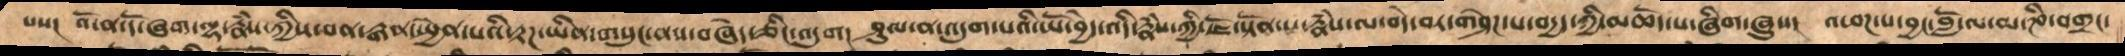པས།  འོ་ན་དོ་ཞག་ལྷ་རྣཾས་ཀྱིས་ཕན་རྒན་སྤྱེན་པའི་རྟཌ་ཡིན་གསུང་ནས་བཞེད་ཅིང་འདུག།  ཤུལ་ན་འདུག་པའི་ཡོ་བྱེད་འདི་རྣཾས་ཀྱི་ཇོ་སྟོན་པ་རྣཾས་ལ་བདེ་བར་གཤེཌ་པ་བདྱད་ཀྱི་མཆོད་པ་ཞིག་ཞུས།   འཕཌ་པ་བྱང་བློ་ལ་མ་ཎི་བགྲང་
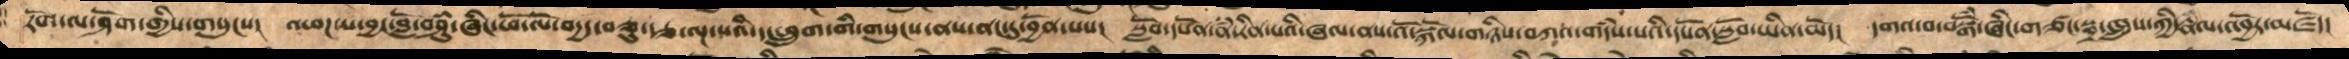རོག་ལ་ཤོག་གྱིས་གསུངས།  འཕཌ་པ་བྱང་བློ་བཤུཾ་ཞིང་ཕོ་ལོ་བདྱད་བཅུ་རྩ་ལྔ་པའི་དང་ཕྲུག་གི་གསུངས་ནས་ནང་དུ་བྱོན་པས།  སློབ་དཔོན་རྣཾ་རིན་པའི་ཞལ་ནས་འོ་སྐོལ་གཉིས་བཀའ་གདཾས་པའི་དཔོན་སློབ་ཡིན་མོད།   དགའ་བ་བསྒོཾ་ཞིང་གཙང་སྦྲ་ཁྲུས་ཀྱི་རྣལ་འབྱོར་མཛདོ།
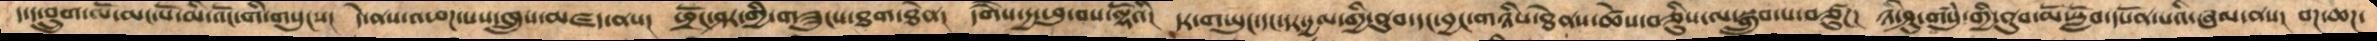ད་ད་བྲུག་ལོ་མང་པོ་མི་འོང་གི་གསུངས།  དེ་ནས་འཕཌ་པས་ཁྲུས་མཛད་ནས།  ཕྲོང་ཤར་གྱི་གཟུངས་ཐག་ཐེན།  དགཻས་དྱ་ཕུ་བས་ལྷོའི།  དར་གཡུང་དང་དར་དྱལ་གྱི་ནུབ་དང་བྱང་གཉིས་ཐེནས་ཚེས་བཅིུས་ལ་སྒྲུབ་པ་བཙུཌ།   ཉི་ཤུ་གསུཾ་གྱི་ནུབ་མོ་སློབ་དཔོན་པའི་ཞལ་ནས།  བཌ་ཆཌ་
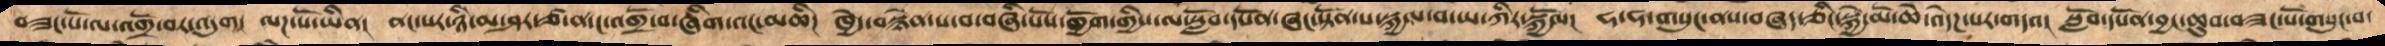བཟང་པོ་ལ་འགྲོ་བར་འདུག།  ལཌ་སོ་ཡིན།  ནང་པར་ཉི་མ་ཤར་ཙ་ན་ང་འགྲོ་བ་ཞིག་འང་མཆི།  ཁྱེད་བསྙེན་པ་བ་བཞི་པོས་གྱོག་གྱིས་ལ་སློབ་དཔོན་ཞང་སྟོན་པ་སྐྱལ་བ་ཡ་ཀིར་སྐྱོལ།  ཧ་ཧ་གསུང་ནས་བཞད་ཅིང་སྐྱེ་མོ་ཆེ་འདེཌ་པར་གདའ།  སློབ་དཔོན་བྱང་ཆུབ་བཟང་པོ་གསུང་བ་
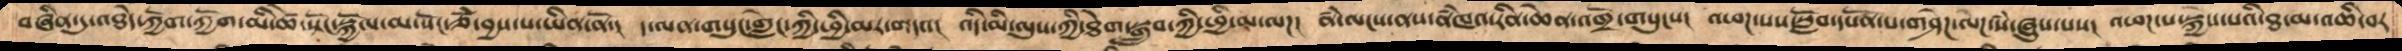བཞིན་དུ་འཐེད་ཀྱོག་ཀྱོག་མི་ཚེ་སྟོང་སྐྱོལ་མ་སོང་ཙཾ་བྱས་པ་ཡིན་ནོ་།  ད་ལན་གསུང་གླེང་ཀྱི་ཕྱི་མར་གདའ།  འདི་མི་ལུས་ཀྱི་ཐེག་སྒྲུབ་ཀྱི་ཕྱི་མ་ལཌ།  ནཾ་ལངས་ནས་ནཾཁའ་རིན་ཆེན་འགྲོ་གསུངས།  འཕཌ་པས་སློབ་དཔོན་པ་གཤེཌ་ལེཌ་སཾ་ཞུས་པས།  འཕཌ་པ་སྐྱེས་པའི་ཐ་མ་འཆི་བར
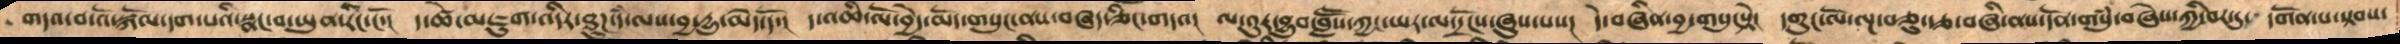གདའ་བ་འོ་སྐོལ་དག་པའི་སྣང་བ་ཡུན་རིང་ངོ་།  ད་ཚེ་འཇུག་འདིར་ཐུཌ་དཾ་ལས་བྱ་དྱུ་མེད་དོ་།  ད་འཆི་ལོ་བྱེད་མོད་གསུང་ནས་བཞད་ཅིང་གདའ།  ལ་འུར་བྱུཾབ་བླཽས་ཀྱང་ཡར་ལ་དྲོངས་ཞུས་པས།  དེ་བཞིན་བྱ་གསུངསྟེ།  དགུང་ལོ་ལྔ་བཅུ་རྩ་བཞི་ནས་དོན་གསུཾ་བཞེས་ཀྱི་བར་དུ་  དགོན་པ་སྟབས་
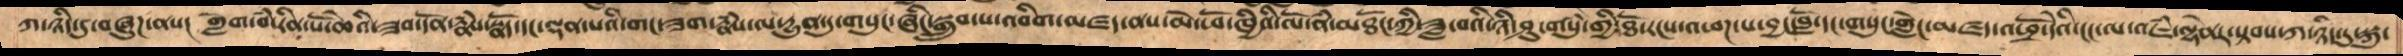ཀ་ཉིད་དུ་བཞུཌ་ནས།   གླེག་བཾ་རིན་པོ་ཆེའི་ཟབ་དོན་རྣཾས་སྣོད་དང་ལྡན་པའི་གང་ཟག་རྣཾས་ལ་དྱུན་དུ་གསུང་ཞིང་སྒྲུབ་པ་འབིག་མཛད་ནས་མེ་ཕོ་ཁྱིའི་ལོ་ནཾ་མཐོང་ཀྱི་ཟླ་བའི་ཉི་ཤུ་གསུཾ་གྱི་ཐོ་རངས་འཕཌ་པ་བྱང་བློ་དང་གསུང་གླེང་མཛད་འཕྲོ་དེའི་ངང་ལ་འཇཾ་ལྷེནར་སྟབས་ཀ་ཉིད་དུ་སྐུ་
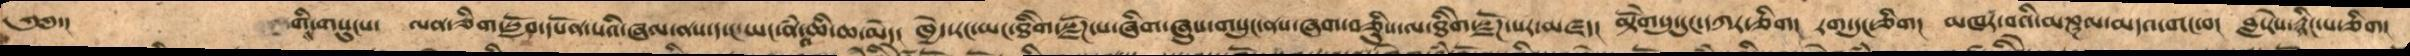༄༅་།      གིས་གསུངས། ལན་ཅིག་སློབ་དཔོན་པའི་ཞལ་ནས་ད་ང་ཡང་ནཾ་འཆི་ཆ་མེད། ཁྱེད་རང་ཡང་ཐིགེ་སྫོཌ་པ་ཞིག་ཞུས་གསུང་ནས་ཞག་བཅིུས་ལ་ཐིགེ་སྫོཌ་པར་མཛད། མྟེོགསུ་དུང་དཀར་ཅིག།  རག་དུང་ཅིག།  མཁར་བའི་མཎྜལ་མདའ་གང་བ། བླ་རེས་རྙིང་པ་ཅིག།
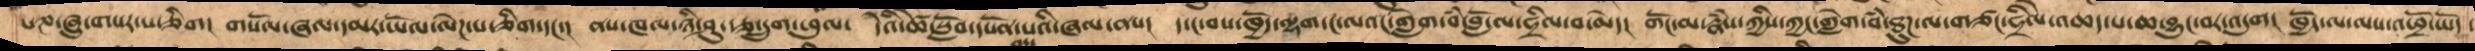པཎ་ཞུ་གསར་པ་ཅིག།  གསོལ་ཞལ་དམར་ཡོལ་ལེཌ་པ་ཅིག་དང་།  ནས་ཁལ་ཉི་ཤུ་རྩ་དྲུག་ཕུལ་  དེའི་ཚེ་སློབ་དཔོན་པའི་ཞལ་ནས་།  ད་ང་བས་ཁྱོད་ལྷག་ང་ལའང་གླེག་བཾ་བློ་ལ་ཧྲིལ་བ་མེད།  གོང་མ་རྣཾས་ཀྱིས་ཀྱང་གླེག་བཾ་ཐུཌ་ལ་གཙང་ཧྲིལ་འཆད་པ་ཆ་བྱུང་བར་འདུག།  ཁྱོད་ལ་ལས་འཕྲོ་ཡོད
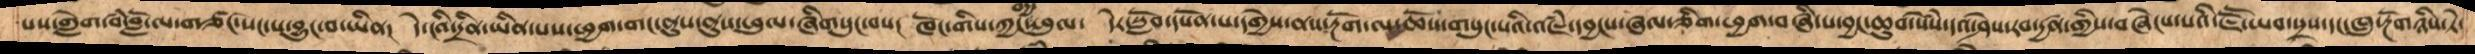པས་གླེག་བཾ་་བློ་ལ་གཙང་སེང་པ་བྱུང་བ་ཡིན། དེ་ངའི་དྲིན་ཡིན་པས་ཕྱག་གང་ནུས་ནུས་ཕུལ་ཞིགསུང་བས། ཁོང་གིས་ཀྱང་བདྱ་ཕུལ། དེར་སློབ་དཔོན་པ་དགྱེས་ནས་རྔོག་ལ་ཆོས་གསུང་པའི་འཇཾ་དབྱངས་ཞལ་ཅིག་ཕྱག་བཞི་པ་བྱང་ཆུབ་སེཾས་དའ་ཤེས་རབ་དྱཚན་གྱིས་བཞེངས་པའི་ཇཽ་ཡབ་སྲས་དང་ཁུ་རྔོགཉིས་ཏེ་
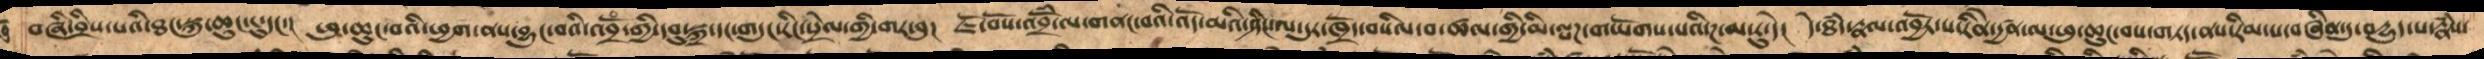བཞི་བྲིས་པའི་ཐང་སྐུ་ཆུང་ངུ་དང་། ཕུ་ཆུང་བའི་ཕྱག་ནས་བྱུང་བའི་འབྲོཾ་གྱི་དབུ་སྐྲ་དང་གདུང་རིང་སྲེལ་གྱི་གར་བུ། ཇོ་བོས་འབྲོཾ་ལ་གནང་བའི་འོད་མའི་ཤིང་ལ་དུར་ཁྲོད་བསིལ་བ་ཚལ་གྱི་མི་ལྤཌ་གཡོགས་པའི་ཌ་མ་རུ་དེ། དེ་ཐཾད་རྣལ་འབྱོར་པ་རིེན་དྱཚན་ལ་ཕུ་ཆུང་བས་གཏད་ནས་རིམ་པ་བཞིན་དུ་བདྱུད་པ་རྣཾས་
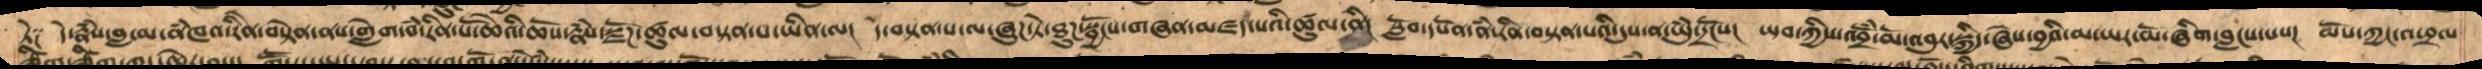ཏེ༑  དེ་རྣཾས་བླ་མ་ནཾཁའ་རིནེ་བསྟེན་ནས་གླེག་བཾ་རིན་པོ་ཆེའི་ཆོས་རྣཾས་སྫོཌ་ཚུལ་བསྟན་པ་ཡིན་ལ།  དེ་བསྟན་པ་ལ་ཞུཌ་ཏེ་ཐུཌ་སྦྱོངས་གཞན་མཛད་པའི་ཚུལ་ནི།  སློབ་དཔོན་ནཾ་རིན་བསྟན་པའི་དུས་ན་ཡུཾ་དྲོངས།  ཡབ་ཀྱིས་འབྲོཾ་མོ་འབུར་སྐྱིདཞེས་བྱའི་མ་ཡར་མོ་ཞིག་བླངས་པས།  མོས་ཀྱང་འཕྲལ
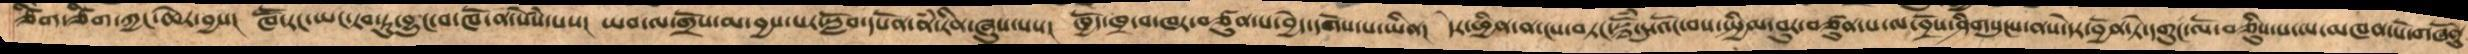ཙིག་ཙིག་ཀྱང་ཆེར་བྱས།  ཁཽ་རང་ཡང་རབ་ཏུ་བྱུང་བ་ཁོ་ན་སེསཾ་པས།  ཡབ་ལ་གྲོས་མ་བྱས་པར་སློབ་དཔོན་ནཾ་རིན་ཞུས་པས།  ཁྱོད་ཁྲ་བ་ཁར་བཙུན་པ་བྱེད་དགོས་པ་ཡིན།  དེར་ཕྱིན་ན་ངས་བཏང་སྙོཾ་དུ་འོང་བས་སྤྱིམ་བུར་བཙུན་པ་ལ་བྲོས་ཤིགསུངས་ནས་དེར་བྱོན་ཏེ་དགུང་ལོ་བཅིུས་པ་ལ་མཁན་པོ་གཞོནུ་
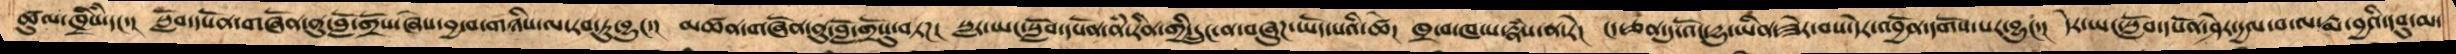ཚུལ་ཁྲིསཾ་དང་།  སློབ་དཔོན་གཞོན་ནུ་བློ་གྲོས་ཞེས་བྱ་བ་གཉིས་ལ་རབ་ཏུ་བྱུང་།  མཚན་གཞོན་ནུ་བློ་གྲོསུ་བཏཌ།  སླར་ཡང་སློབ་དཔོན་ནཾ་རིན་གྱི་དྲུང་ན་བཞུཌ་ཡོད་པའི་ཚེ།  ཁྲ་བ་ཁ་པ་རྣཾས་ན་རེ།  ངད་ཅན་དུ་འོང་དྱུ་ཡིན་ཟེར་བས་དེར་འབྱོན་དགོས་པར་བྱུང་།  དེར་ཡང་སློབ་དཔོན་ཤེར་དྱལ་་བ་ལ་རྨ་བྱའི་དབུ་མ་
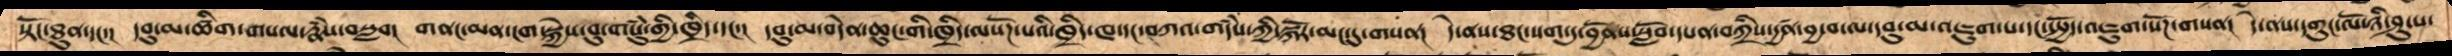སྟོང་ཐུན་དང་།  དབུ་མ་ཚིག་གསལ་རྣཾས་བསླབ།  གནང་མན་ངག་སྐྱེས་བུ་གསུཾ་གྱི་ཁྲིད་དང་།  དབུ་མ་བདེན་ཆུང་གི་ཁྲིད་ལསོཌ་པའི་ཁྲིད་ཁ་དང་བཀའ་གདཾས་ཀྱི་སྐོར་མང་དུ་གསན།  དེ་ནས་ཐང་སག་དུ་བྱོནས་སློབ་དཔོན་བཀྲིས་དྱཚན་བྱ་བ་ལ་དབུ་མ་འཇུག་པ་དང་སྤྱོད་འཇུག་སོཌ་གསན།  དེ་ནས་དགུང་ལོ་ཉི་ཤུ་པ་
